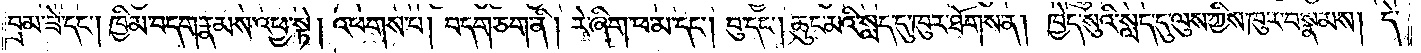བྲམ་ཟེ་དང༌། ཁྱིམ་བདག་རྣམས་འཕྱ་སྟེ། འཕགས་པ། བདག་ཅག་ནི། རེ་ཞིག་ཕ་མ་དང༌། བུ་དང༌། ཆུང་མའི་སླད་དུ་ཁུར་ཐོགས་ན། ཁྱེད་སུའི་སླད་དུ་ལུས་ཀྱིས་ཁུར་བསྣམས། དེ་
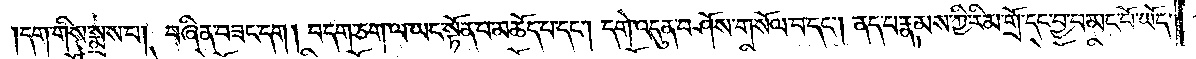དག་གིས་སྨྲས་པ། བཞིན་བཟང་དག །བདག་ཅག་ལ་ཡང་སྟོན་པ་མཆོད་པ་དང༌། དགེ་འདུན་བཤོས་གསོལ་བ་དང༌། ནད་པ་རྣམས་ཀྱི་རིམ་གྲོ་དང་བྱ་བ་མང་པོ་ཡོད་
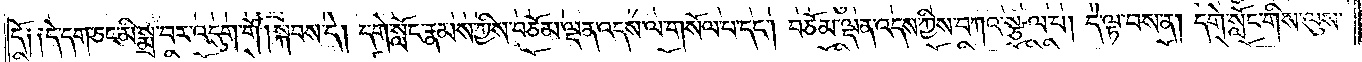དོ༑ ༑དེ་དག་ཅང་མི་སྨྲ་བར་འདུག་གོ །སྐབས་དེ། དགེ་སློང་རྣམས་ཀྱིས་བཅོམ་ལྡན་འདས་ལ་གསོལ་པ་དང༌། བཅོམ་ལྡན་འདས་ཀྱིས་བཀའ་སྩལ་པ། དེ་ལྟ་བས་ན། དགེ་སློང་གིས་ལུས་
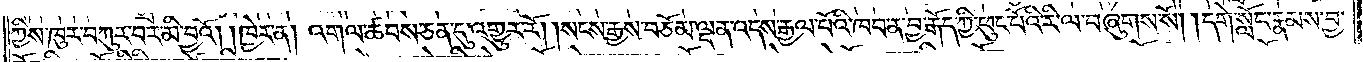ཀྱིས་ཁུར་བཀུར་བར་མི་བྱའོ། །ཁྱེར་ན། འགལ་ཚབས་ཅན་དུ་འགྱུར་རོ། །སངས་རྒྱས་བཅོམ་ལྡན་འདས་རྒྱལ་པོའི་ཁབ་ན་བྱ་རྒོད་ཀྱི་ཕུང་པོའི་རི་ལ་བཞུགས་སོ། །དགེ་སློང་རྣམས་བྱ་
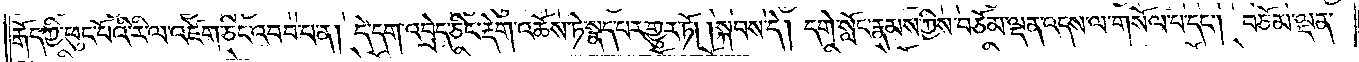རྒོད་ཀྱི་ཕུང་པོའི་རི་ལ་འཛེག་ཅིང་འབབ་པ་ན། དེ་དག་འབྲེད་ཅིང་རྡེག་འཆོས་ཏེ་སྣད་པར་གྱུར་ཏོ། །སྐབས་དེ། དགེ་སློང་རྣམས་ཀྱིས་བཅོམ་ལྡན་འདས་ལ་གསོལ་པ་དང༌། བཅོམ་ལྡན་
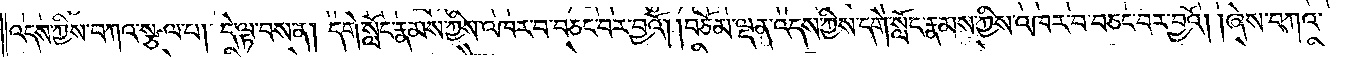འདས་ཀྱིས་བཀའ་སྩལ་པ། དེ་ལྟ་བས་ན། དགེ་སློང་རྣམས་ཀྱིས་འཁར་བ་བཅང་བར་བྱའོ། །བཅོམ་ལྡན་འདས་ཀྱིས་དགེ་སློང་རྣམས་ཀྱིས་འཁར་བ་བཅང་བར་བྱའོ། །ཞེས་བཀའ་
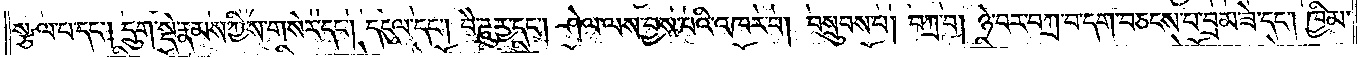སྩལ་པ་དང༌། དྲུག་སྡེ་རྣམས་ཀྱིས་གསེར་དང༌། དངུལ་དང༌། བཻ་ཌཱུཪྻ་དང༌། ཤེལ་ལས་བྱས་པའི་འཁར་བ། བསྲུབས་པ། བཀྲ་བ། ཉེ་བར་བཀྲ་བ་དག་བཅངས་པ་བྲམ་ཟེ་དང༌། ཁྱིམ་
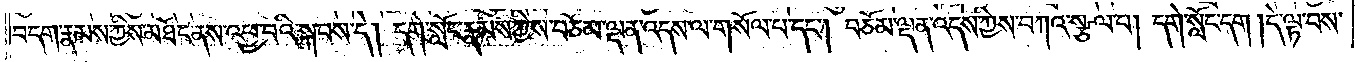བདག་རྣམས་ཀྱིས་མཐོང་ནས་འཕྱ་བའི་སྐབས་དེ། དགེ་སློང་རྣམས་ཀྱིས་བཅོམ་ལྡན་འདས་ལ་གསོལ་པ་དང༌། བཅོམ་ལྡན་འདས་ཀྱིས་བཀའ་སྩལ་པ། དགེ་སློང་དག །དེ་ལྟ་བས་
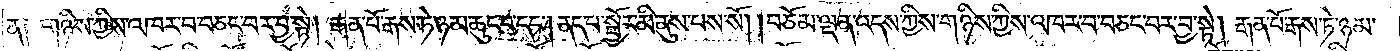ན༑ གཉིས་ཀྱིས་འཁར་བ་བཅང་བར་བྱ་སྟེ། རྒན་པོ་རྒས་ཏེ་ཉམ་ཆུང་བ་དང༌། ནད་པ་སྦྱོར་མི་ནུས་པས་སོ། །བཅོམ་ལྡན་འདས་ཀྱིས་གཉིས་ཀྱིས་འཁར་བ་བཅང་བར་བྱ་སྟེ། རྒན་པོ་རྒས་ཏེ་ཉམ་
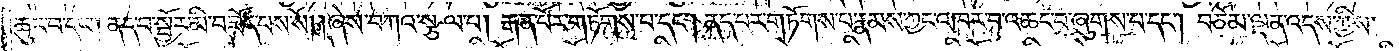ཆུང་བ་དང༌། ནད་པ་སྦྱོར་མི་བཟོད་པས་སོ། །ཞེས་བཀའ་སྩལ་པ། རྒན་པོར་གཏོགས་པ་དང༌། ནད་པར་གཏོགས་པ་རྣམས་ཀྱང་འཁར་བ་འཆང་བ་ཞུགས་པ་དང༌། བཅོམ་ལྡན་འདས་ཀྱིས་
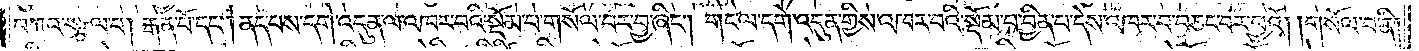བཀའ་སྩལ་པ། རྒན་པོ་དང༌། ནད་པས་དགེ་འདུན་ལ་འཁར་བའི་སྡོམ་པ་གསོལ་བར་བྱ་ཞིང༌། གང་ལ་དགེ་འདུན་གྱིས་འཁར་བའི་སྡོམ་པ་བྱིན་པ་དེས་འཁར་བ་བཅང་བར་བྱའོ། གསོལ་བ་ནི།
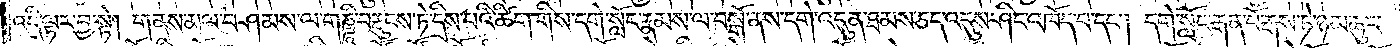འདི་ལྟར་བྱ་སྟེ། གནས་མལ་བཤམས་ལ་གཎྜཱི་བརྡུངས་ཏེ་དྲིས་པའི་ཚིག་གིས་དགེ་སློང་རྣམས་ལ་བསྒོ་ནས་དགེ་འདུན་ཐམས་ཅད་འདུས་ཤིང་འཁོད་པ་དང༌། དགེ་སློང་རྒན་པོ་རྒས་ཏེ་ཉམ་ཆུང་
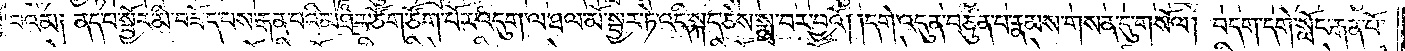བའམ༑ ནད་པ་སྦྱོར་མི་བཟོད་པས་རྒན་པའི་མཐར་ཙོག་ཙོག་པོར་འདུག་ལ་ཐལ་མོ་སྦྱར་ཏེ་འདི་སྐད་ཅེས་སྨྲ་བར་བྱའོ། །དགེ་འདུན་བཙུན་པ་རྣམས་གསན་དུ་གསོལ། བདག་དགེ་སློང་རྒན་པོ་
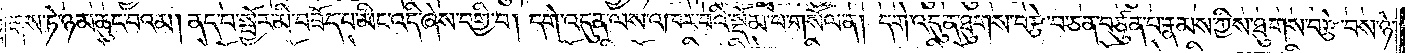རྒས་ཏེ་ཉམ་ཆུང་བའམ། ནད་པ་སྦྱོར་མི་བཟོད་པ་མིང་འདི་ཞེས་བགྱི་བ། དགེ་འདུན་ལས་འཁར་བའི་སྡོམ་པ་གསོལ་ན། དགེ་འདུན་ཐུགས་བརྩེ་བ་ཅན་བཙུན་པ་རྣམས་ཀྱིས་ཐུགས་བརྩེ་བས་ཉེ་
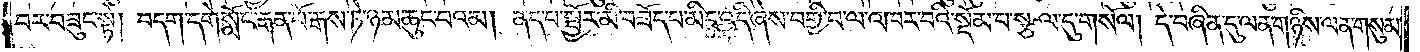བར་བཟུང་སྟེ། བདག་དགེ་སློང་རྒན་པོ་རྒས་ཏེ་ཉམ་ཆུང་བའམ། ནད་པ་སྦྱོར་མི་བཟོད་པ་མིང་འདི་ཞེས་བགྱི་བ་ལ་འཁར་བའི་སྡོམ་པ་སྩལ་དུ་གསོལ། དེ་བཞིན་དུ་ལན་གཉིས་ལན་གསུམ་
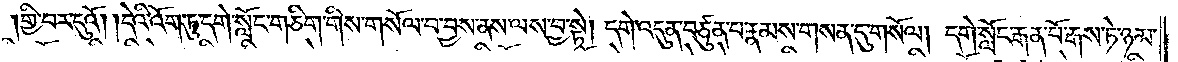གྱི་བར་དུའོ། །དེའི་འོག་ཏུ་དགེ་སློང་གཅིག་གིས་གསོལ་བ་བྱས་ནས་ལས་བྱ་སྟེ། དགེ་འདུན་བཙུན་པ་རྣམས་གསན་དུ་གསོལ། དགེ་སློང་རྒན་པོ་རྒས་ཏེ་ཉམ་
